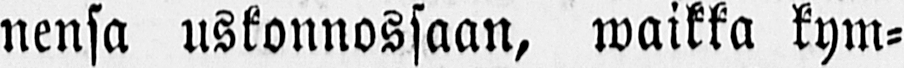nensa uskonnossaan, waikka kym-
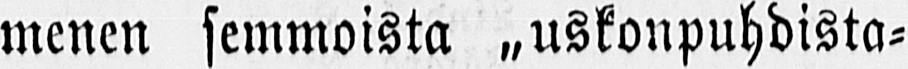menen semmoista „uskonpuhdista-
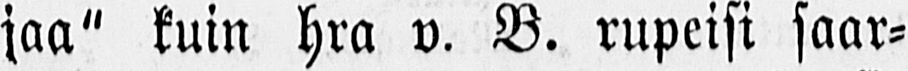jaa" kuin hra v. B. rupeisi saar-
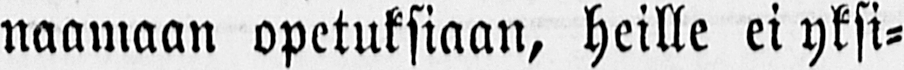naamaan opetuksiaan, heille ei yksi-
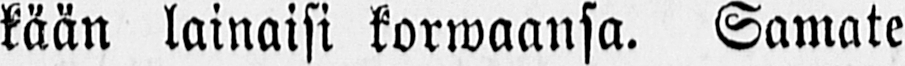kään lainaisi korwaansa. Samate
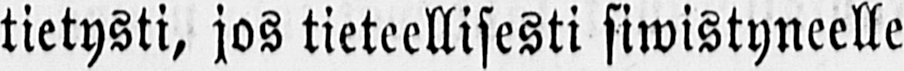tietysti, jos tieteellisesti siwistyneelle
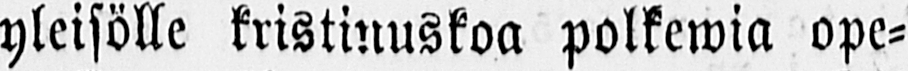yleisölle kristinuskoa polkewia ope-
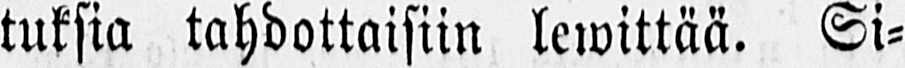tuksia tahdottaisiin lewittää. Si-
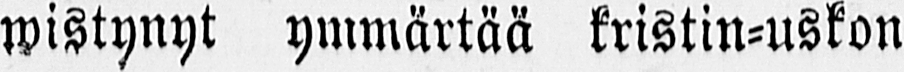wistynyt ymmärtää kristin-uskon
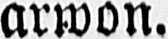arwon.
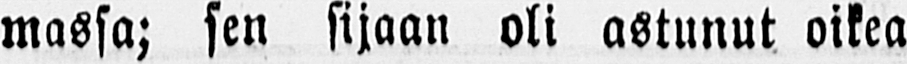massa; sen sijaan oli astunut oikea
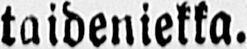taideniekka.
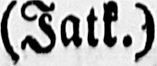(Jatk.)
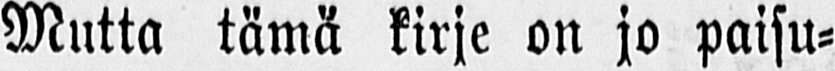Mutta tämä kirje on jo paisu-
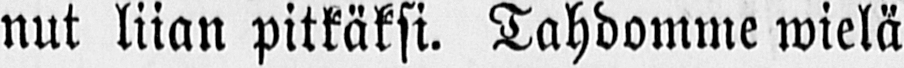nut liian pitkäksi. Tahdomme wielä
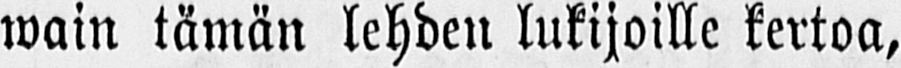wain tämän lehden lukijoille kertoa,
